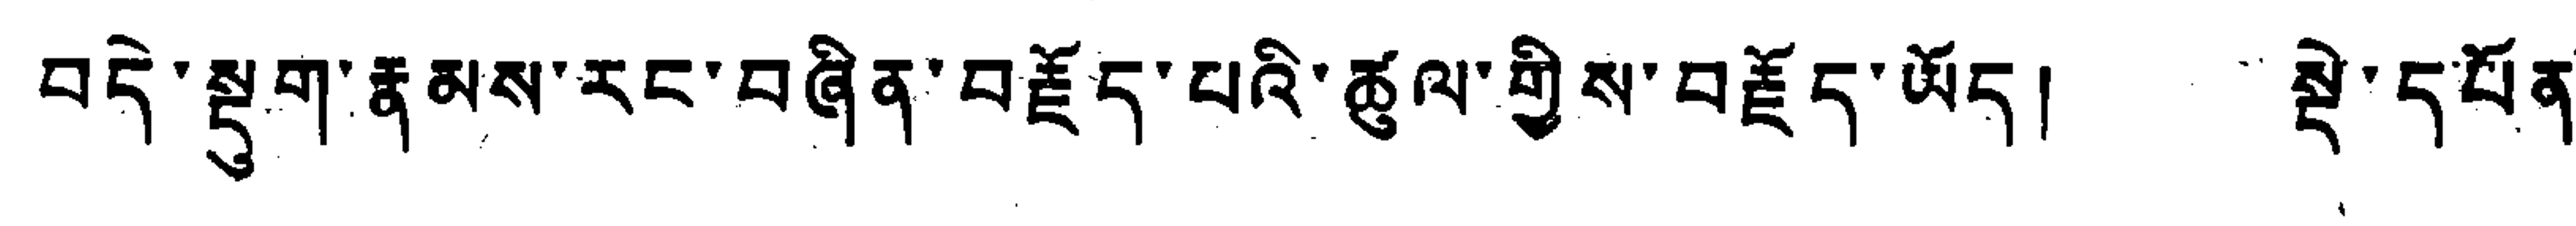བདེ་སྡུག་རྣམས་རང་བཞིན་བརྗོད་པའི་ཚུལ་གྱིས་བརྗོད་ཡོད། སྡེ་དཔོན་
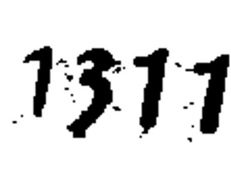1311
